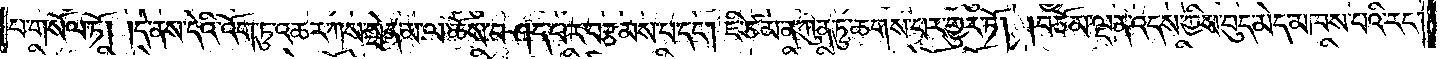པ་གསོལ་ཏོ། །དེ་ནས་དེའི་འོག་ཏུ་འཆར་ཀས་སྦེད་མ་ལ་ཆོས་བཤད་པར་བརྩམས་པ་དང༌། ཇི་ཙམ་ན་ཀུན་ཏུ་ཆགས་པར་གྱུར་ཏོ། །བཅོམ་ལྡན་འདས་ཀྱིས་བུད་མེད་མཁས་པའི་རང་
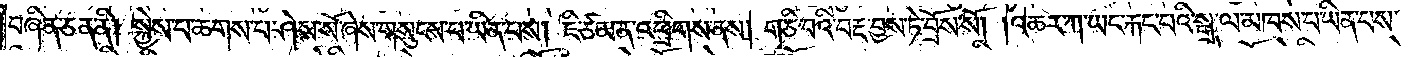བཞིན་ཅན་ནི། སྐྱེས་པ་ཆགས་པ་ཤེས་སོ་ཞེས་གསུངས་པ་ཡིན་པས། ཇི་ཙམ་ན་འཕྲིགས་ནས། གཅི་བའི་བརྔ་བྱས་ཏེ་བྲོས་སོ། །འཆར་ཀ་ཡང་རྐང་པའི་སྒྲ་ལ་མཁས་པ་ཡིན་པས་
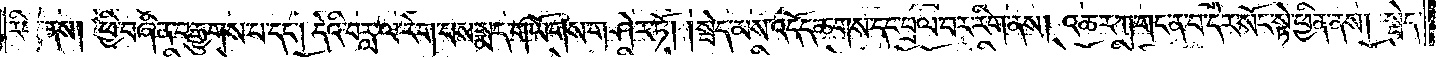རིག་ནས། ཕྱི་བཞིན་བརྒྱུགས་པ་དང༌། དེའི་བརླ་ལ་རེག་པས་སྨད་གཡོགས་གཤེར་ཏོ། །སྦེད་མས་འདོད་ཆགས་དང་བྲལ་བར་རིག་ནས། འཆར་ཀ་གང་ན་བ་དེར་སོང་སྟེ་ཕྱིན་ནས། སྦེད་
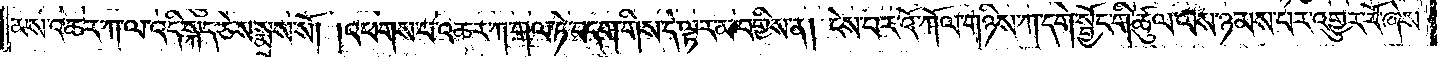མས་འཆར་ཀ་ལ་འདི་སྐད་ཅེས་སྨྲས་སོ། །འཕགས་པ་འཆར་ཀ་གལ་ཏེ་བདག་གིས་དེ་ལྟར་མ་བགྱིས་ན། ངེས་པར་འོ་ཀོལ་གཉིས་ཀ་དགེ་སྦྱོང་གི་ཚུལ་ལས་ཉམས་པར་འགྱུར་རོ་ཞེས་
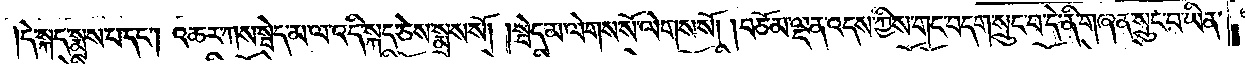དེ་སྐད་སྨྲས་པ་དང༌། འཆར་ཀས་སྦེད་མ་ལ་འདི་སྐད་ཅེས་སྨྲས་སོ། །སྦེད་མ་ལེགས་སོ་ལེགས་སོ། །བཅོམ་ལྡན་འདས་ཀྱིས་གང་བདག་སྲུང་བ་དེ་ནི་གཞན་སྲུང་བ་ཡིན་
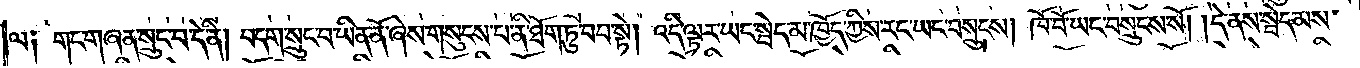ལ༑ གང་གཞན་སྲུང་བ་དེ་ནི། བདག་སྲུང་བ་ཡིན་ནོ་ཞེས་གསུངས་པ་ནི་ཐོག་ཏུ་བབ་སྟེ། འདི་ལྟར་ཡང་སྦེད་མ་ཁྱོད་ཀྱིས་རང་ཡང་བསྲུངས། ཁོ་བོ་ཡང་བསྲུངས་སོ། །དེ་ནས་སྦེད་མས་
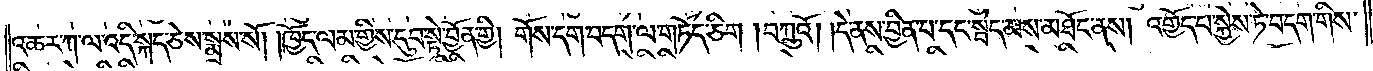འཆར་ཀ་ལ་འདི་སྐད་ཅེས་སྨྲས་སོ། །ཁྱོད་ལམ་གྱིས་དུབ་སྟེ་བྱོན་གྱི། གོས་དག་བདག་ལ་གཏོད་ཅིག །བཀྲུའོ། །དེ་ནས་བྱིན་པ་དང་སྦེད་མས་མཐོང་ནས། འགྱོད་པ་སྐྱེས་ཏེ་བདག་གིས་
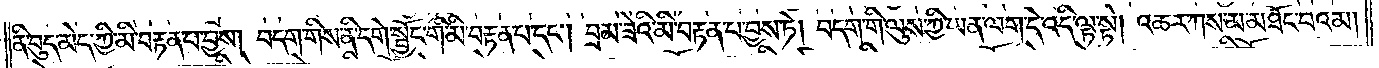ནི་བུད་མེད་ཀྱི་མི་བརྟན་པ་བྱས། བདག་གིས་ནི་དགེ་སྦྱོང་གི་མི་བརྟན་པ་དང༌། བྲམ་ཟེའི་མི་བརྟན་པ་བྱས་ཏེ། བདག་གི་ལུས་ཀྱི་ཡན་ལག་དེ་འདི་ལྟ་སྟེ། འཆར་ཀས་མ་མཐོང་བའམ།
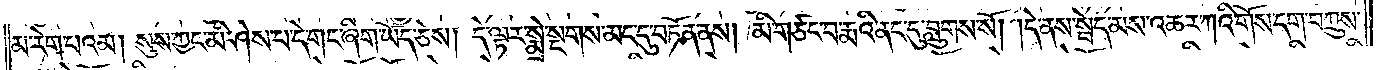མ་རེག་པའམ། སུས་ཀྱང་མི་ཤེས་པ་དེ་གང་ཞིག་ཡོད་ཅེས། དེ་ལྟར་སྨྲེ་སྔགས་མང་དུ་བཏོན་ནས། མི་གཙང་བ་རྨའི་ནང་དུ་བླུགས་སོ། །དེ་ནས་སྦེད་མས་འཆར་ཀའི་གོས་དག་བཀྲུས་
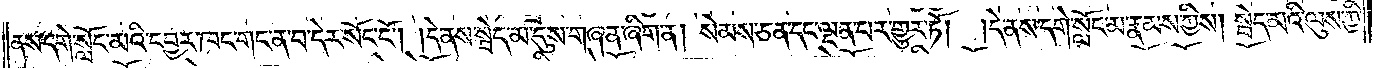ནས་དགེ་སློང་མའི་དབྱར་ཁང་གང་ན་བ་དེར་སོང་ངོ༌། །དེ་ནས་སྦེད་མ་དུས་གཞན་ཞིག་ན། སེམས་ཅན་དང་ལྡན་པར་གྱུར་ཏོ། །དེ་ནས་དགེ་སློང་མ་རྣམས་ཀྱིས། སྦེད་མའི་ལུས་ཀྱི་
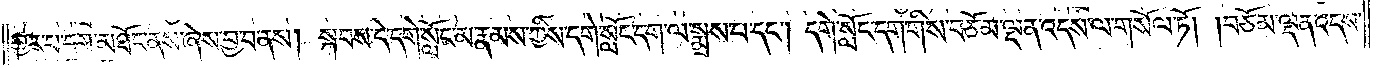གྱུར་པ་དག་མཐོང་ནས་ཞེས་བྱ་བ་ནས། སྐབས་དེ་དགེ་སློང་མ་རྣམས་ཀྱིས་དགེ་སློང་དག་ལ་སྨྲས་པ་དང༌། དགེ་སློང་དག་གིས་བཅོམ་ལྡན་འདས་ལ་གསོལ་ཏོ། །བཅོམ་ལྡན་འདས་
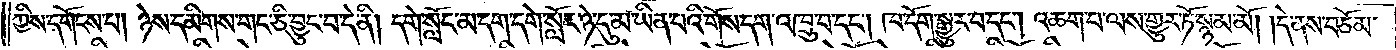ཀྱིས་དགོངས་པ། ཉེས་དམིགས་གང་ཅི་བྱུང་བ་དེ་ནི། དགེ་སློང་མ་དག་དགེ་སློང་ཉེ་དུ་མ་ཡིན་པའི་གོས་དག་འཁྲུ་བ་དང༌། ཁ་དོག་སྒྱུར་བ་དང༌། འཆག་པ་ལས་གྱུར་ཏོ་སྙམ་མོ། །དེ་ནས་བཅོམ་
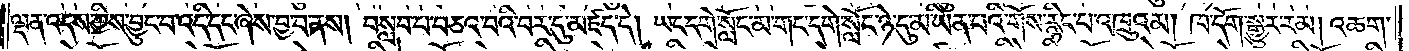ལྡན་འདས་ཀྱིས་བྱུང་བ་འདི་དང་ཞེས་བྱ་བ་ནས། བསླབ་པ་བཅའ་བའི་བར་དུ་མཛད་དེ། ཡང་དགེ་སློང་མ་གང་དགེ་སློང་ཉེ་དུ་མ་ཡིན་པའི་གོས་རྙིང་པ་འཁྲུའམ། ཁ་དོག་སྒྱུར་རམ། འཆག་
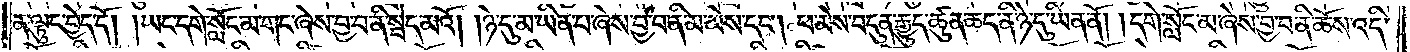ན་ལྟུང་བྱེད་དོ། །ཡང་དགེ་སློང་མ་གང་ཞེས་བྱ་བ་ནི་སྦེད་མའོ། །ཉེ་དུ་མ་ཡིན་པ་ཞེས་བྱ་བ་ནི་མ་མེས་དང༌། ཕ་མེས་བདུན་རྒྱུད་ཚུན་ཆད་ནི་ཉེ་དུ་ཡིན་ནོ། །དགེ་སློང་མ་ཞེས་བྱ་བ་ནི་ཆོས་འདི་
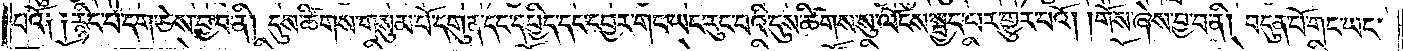པའོ། །རྙིང་པ་དག་ཅེས་བྱ་བ་ནི། དུས་ཚིགས་གསུམ་པོ་དགུན་དང་དཔྱིད་དང་དབྱར་གང་ཡང་རུང་བའི་དུས་ཚིགས་སུ་ལོངས་སྤྱད་པར་གྱུར་པའོ། །གོས་ཞེས་བྱ་བ་ནི། བདུན་པོ་གང་ཡང་
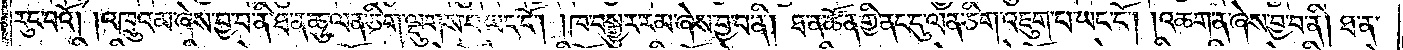རུང་བའོ། །འཁྲུའམ་ཞེས་བྱ་བ་ནི་ཐ་ན་ཆུ་ལན་ཅིག་ལྡུགས་པ་ཡང་ངོ༌། །ཁ་བསྒྱུར་རམ་ཞེས་བྱ་བ་ནི། ཐ་ན་ཚོན་གྱི་ནང་དུ་ལན་ཅིག་འཇུག་པ་ཡང་ངོ༌། །འཆག་ན་ཞེས་བྱ་བ་ནི། ཐ་ན་
